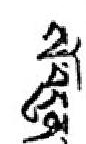སོ་བདུན་
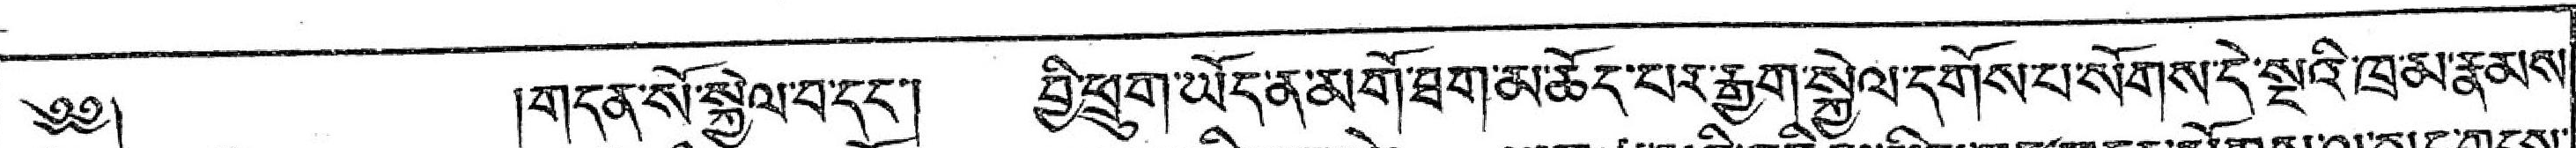༄༅།  །གདན་སོ་སྐྱེལ་བ་དང་། བྱི་ཕྲུག་ཡོད་ན་མགོ་ཐག་མཆོད་པར་རྒྱག་སྐྱེལ་དགོས་པ་སོགས་དེ་སྔའི་ཁྲ་མ་རྣམས་
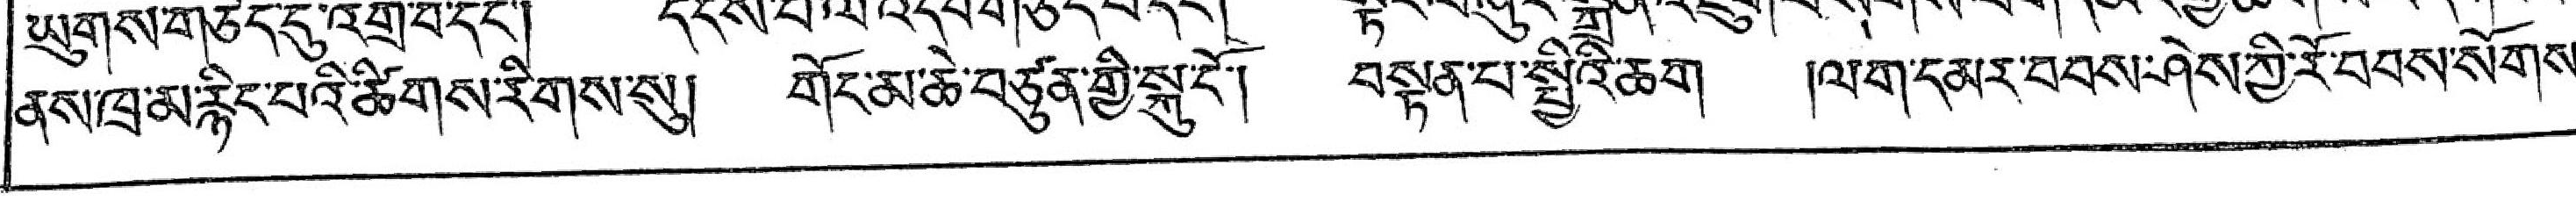ནས་ཁྲ་མ་རྙིང་པའི་ཚིགས་རིགས་སུ། གོང་མ་ཆེ་བཙུན་གྱི་སྐུ་ངོ་། བསྟན་པ་སྤྱིའི་ཆག །ལག་དམར་བབས་ཤེས་ཀྱི་རོ་བབས་སོགས་
